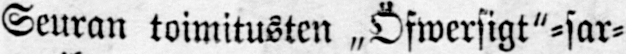Seuran toimitusten „Öfwersigt"-sar-
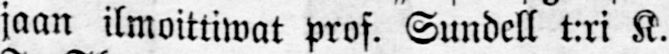jaan ilmoittiwat prof. Sundell t:ri K.
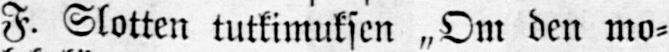F. Slotten tutkimuksen „Om den mo-
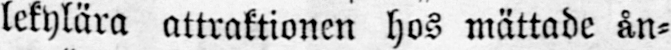lekylära attraktionen hos mättade ån-
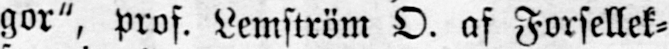gor", prof. O. af Forsellek-
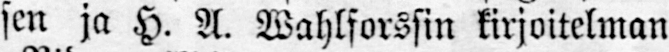sen ja H. A. Wahlforssin kirjoitelman
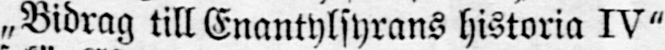„Bidrag till Enantylsyrans historia IV"
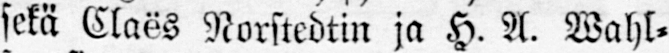sekä Claës Norstedtin ja H. A. Wahl-
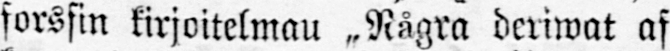forssin kirjoitelmau ˶Rågra deriwat af
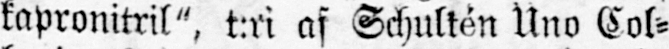kapronitril", t:ri af Schultén Uno Col-
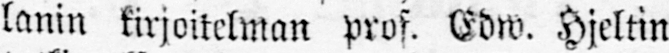lanin kirjoikelman prof. Edw. Hjeltin
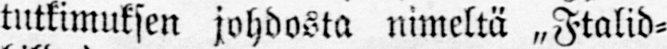tutkimuksen johdosta nimeltä „Ftalid-
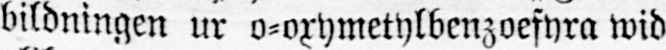bildningen ur o-oxymetylbenzoefyra wid
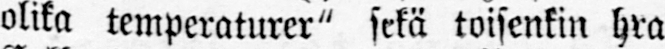olika temperaturer" sekä toisenkin hra
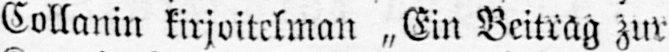Collanin kirjoitelman „Ein Veitrag zur
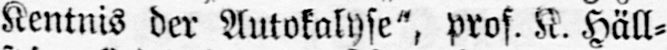Kentnis der Autokalyse", prof. K Häll-
